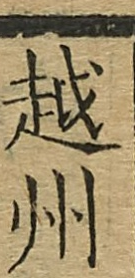越州
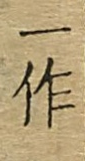一作
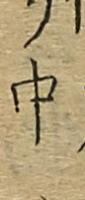中
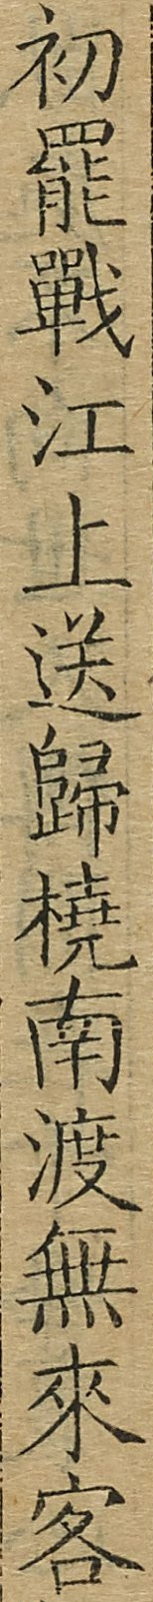初罷戰江上送歸橈南渡無來客
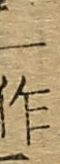一作
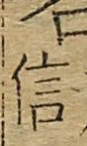信
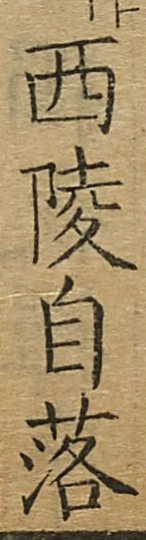西陵自落
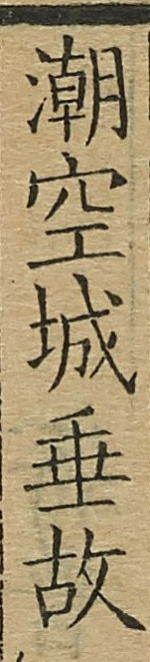潮空城垂故
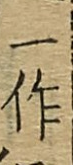一作
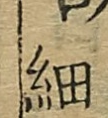細
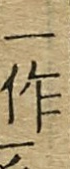一作
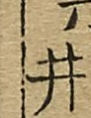井
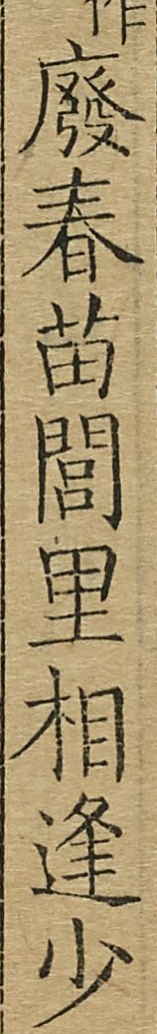廢春苗閭里相逢少
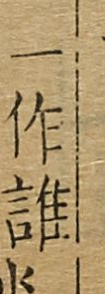一作誰
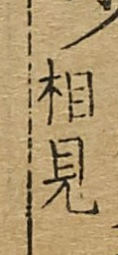相見
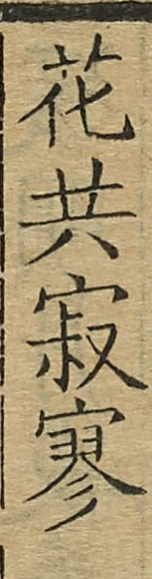花共寂寥
